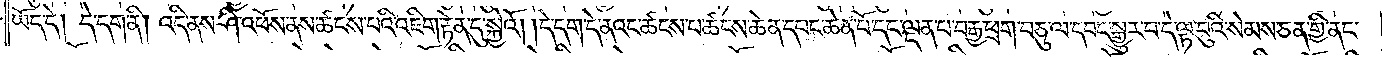ཡོད་དེ། དེ་དག་ནི། འདི་ནས་ཤི་འཕོས་ནས་ཚངས་པའི་འཇིག་རྟེན་དུ་སྐྱེའོ། །དེ་དག་དེ་ནའང་ཚངས་པ་ཚངས་ཆེན་དབང་ཆེན་པོ་དང་ལྡན་པ་བརྒྱ་ཕྲག་བཅུ་ལ་དབང་སྒྱུར་བ་དེ་ལྟ་བུའི་སེམས་ཅན་གྱི་ནང་
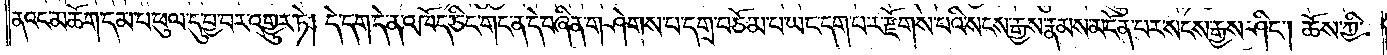ནའང་མཆོག་དམ་པ་ཕུལ་དུ་བྱ་བར་འགྱུར་ཏེ། དེ་དག་དེ་ན་འཁོད་ཅིང་གང་ན་དེ་བཞིན་གཤེགས་པ་དགྲ་བཅོམ་པ་ཡང་དག་པར་རྫོགས་པའི་སངས་རྒྱས་རྣམས་མངོན་པར་སངས་རྒྱས་ཤིང༌། ཆོས་ཀྱི་
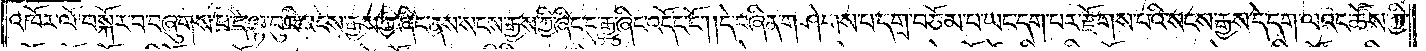འཁོར་ལོ་བསྐོར་བ་བཞུགས་པ་དེ་ལྟ་བུའི་སངས་རྒྱས་ཀྱི་ཞིང་ནས་སངས་རྒྱས་ཀྱི་ཞིང་དུ་རྒྱུ་ཞིང་འདོང་ངོ༌། །དེ་བཞིན་གཤེགས་པ་དགྲ་བཅོམ་པ་ཡང་དག་པར་རྫོགས་པའི་སངས་རྒྱས་དེ་དག་ལའང་ཆོས་ཀྱི་
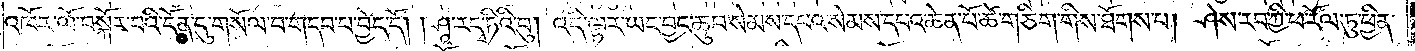འཁོར་ལོ་བསྐོར་བའི་དོན་དུ་གསོལ་བ་གདབ་པ་བྱེད་དོ། །ཤཱ་ར་དྭ་ཏིའི་བུ། འདི་ལྟར་ཡང་བྱང་ཆུབ་སེམས་དཔའ་སེམས་དཔའ་ཆེན་པོ་ཚེ་གཅིག་གིས་ཐོགས་པ། ཤེས་རབ་ཀྱི་ཕ་རོལ་ཏུ་ཕྱིན་
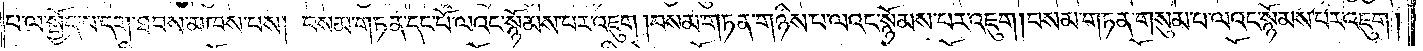པ་ལ་སྤྱོད་པ་དག་ཐབས་མཁས་པས། བསམ་གཏན་དང་པོ་ལའང་སྙོམས་པར་འཇུག །བསམ་གཏན་གཉིས་པ་ལའང་སྙོམས་པར་འཇུག །བསམ་གཏན་གསུམ་པ་ལའང་སྙོམས་པར་འཇུག །
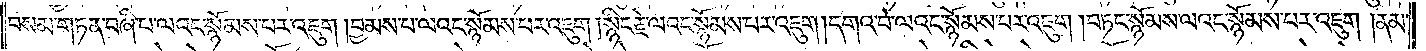བསམ་གཏན་བཞི་པ་ལའང་སྙོམས་པར་འཇུག །བྱམས་པ་ལའང་སྙོམས་པར་འཇུག །སྙིང་རྗེ་ལའང་སྙོམས་པར་འཇུག །དགའ་བ་ལའང་སྙོམས་པར་འཇུག །བཏང་སྙོམས་ལའང་སྙོམས་པར་འཇུག །ནམ་
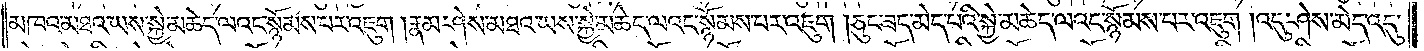མཁའ་མཐའ་ཡས་སྐྱེ་མཆེད་ལའང་སྙོམས་པར་འཇུག །རྣམ་ཤེས་མཐའ་ཡས་སྐྱེ་མཆེད་ལའང་སྙོམས་པར་འཇུག །ཅུང་ཟད་མེད་པའི་སྐྱེ་མཆེད་ལའང་སྙོམས་པར་འཇུག །འདུ་ཤེས་མེད་འདུ་
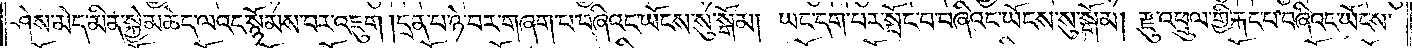ཤེས་མེད་མིན་སྐྱེ་མཆེད་ལའང་སྙོམས་པར་འཇུག །དྲན་པ་ཉེ་བར་གཞག་པ་བཞིའང་ཡོངས་སུ་སྒོམ། ཡང་དག་པར་སྤོང་བ་བཞིའང་ཡོངས་སུ་སྒོམ། རྫུ་འཕྲུལ་གྱི་རྐང་པ་བཞིའང་ཡོངས་
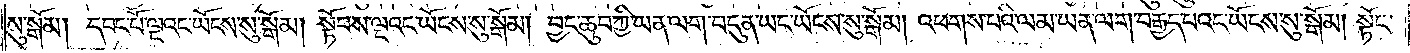སུ་སྒོམ། དབང་པོ་ལྔའང་ཡོངས་སུ་སྒོམ། སྟོབས་ལྔའང་ཡོངས་སུ་སྒོམ། བྱང་ཆུབ་ཀྱི་ཡན་ལག་བདུན་ཡང་ཡོངས་སུ་སྒོམ། འཕགས་པའི་ལམ་ཡན་ལག་བརྒྱད་པའང་ཡོངས་སུ་སྒོམ། སྟོང་
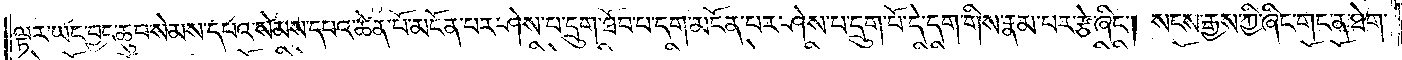ལྟར་ཡང་བྱང་ཆུབ་སེམས་དཔའ་སེམས་དཔའ་ཆེན་པོ་མངོན་པར་ཤེས་པ་དྲུག་ཐོབ་པ་དག་མངོན་པར་ཤེས་པ་དྲུག་པོ་དེ་དག་གིས་རྣམ་པར་རྩེ་ཞིང༌། སངས་རྒྱས་ཀྱི་ཞིང་གང་ན་ཐེག་
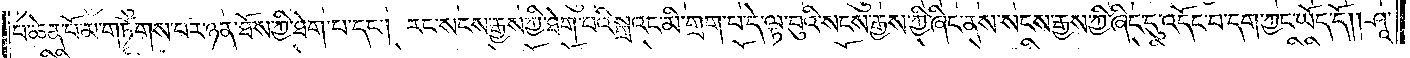པ་ཆེན་པོ་མ་གཏོགས་པར་ཉན་ཐོས་ཀྱི་ཐེག་པ་དང༌། རང་སངས་རྒྱས་ཀྱི་ཐེག་པའི་སྒྲའང་མི་གྲག་པ་དེ་ལྟ་བུའི་སངས་རྒྱས་ཀྱི་ཞིང་ནས་སངས་རྒྱས་ཀྱི་ཞིང་དུ་འདོང་བ་དག་ཀྱང་ཡོད་དོ། །ཤཱ་
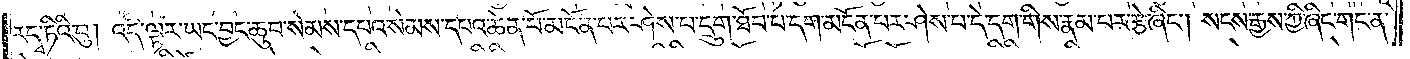ར་དྭ་ཏིའི་བུ། འདི་ལྟར་ཡང་བྱང་ཆུབ་སེམས་དཔའ་སེམས་དཔའ་ཆེན་པོ་མངོན་པར་ཤེས་པ་དྲུག་ཐོབ་པ་དག་མངོན་པར་ཤེས་པ་དེ་དག་གིས་རྣམ་པར་རྩེ་ཞིང༌། སངས་རྒྱས་ཀྱི་ཞིང་གང་ན་
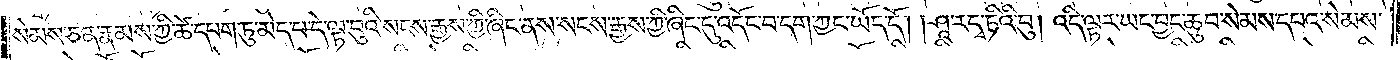སེམས་ཅན་རྣམས་ཀྱི་ཚེ་དཔག་ཏུ་མེད་པ་དེ་ལྟ་བུའི་སངས་རྒྱས་ཀྱི་ཞིང་ནས་སངས་རྒྱས་ཀྱི་ཞིང་དུ་འདོང་བ་དག་ཀྱང་ཡོད་དོ། །ཤཱ་རདྭ་ཏིའི་བུ། འདི་ལྟར་ཡང་བྱང་ཆུབ་སེམས་དཔའ་སེམས་
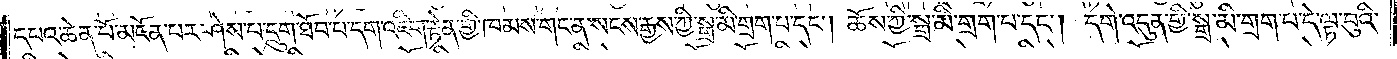དཔའ་ཆེན་པོ་མངོན་པར་ཤེས་པ་དྲུག་ཐོབ་པ་དག་འཇིག་རྟེན་གྱི་ཁམས་གང་ན་སངས་རྒྱས་ཀྱི་སྒྲ་མི་གྲག་པ་དང༌། ཆོས་ཀྱི་སྒྲ་མི་གྲག་པ་དང༌། དགེ་འདུན་གྱི་སྒྲ་མི་གྲག་པ་དེ་ལྟ་བུའི་
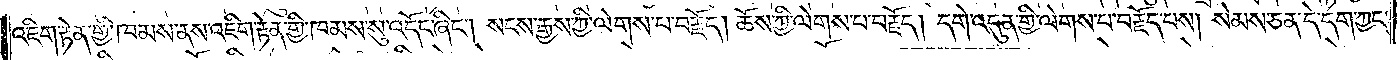འཇིག་རྟེན་གྱི་ཁམས་ནས་འཇིག་རྟེན་གྱི་ཁམས་སུ་འདོང་ཞིང༌། སངས་རྒྱས་ཀྱི་ལེགས་པ་བརྗོད། ཆོས་ཀྱི་ལེགས་པ་བརྗོད། དགེ་འདུན་གྱི་ལེགས་པ་བརྗོད་པས། སེམས་ཅན་དེ་དག་ཀྱང་
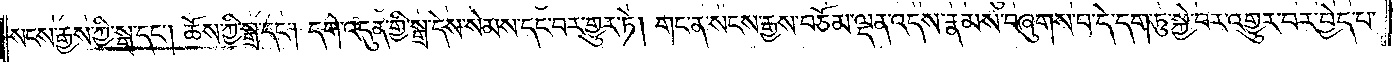སངས་རྒྱས་ཀྱི་སྒྲ་དང༌། ཆོས་ཀྱི་སྒྲ་དང༌། དགེ་འདུན་གྱི་སྒྲ་དེས་སེམས་དང་བར་གྱུར་ཏེ། གང་ན་སངས་རྒྱས་བཅོམ་ལྡན་འདས་རྣམས་བཞུགས་པ་དེ་དག་ཏུ་སྐྱེ་བར་འགྱུར་བར་བྱེད་པ་
